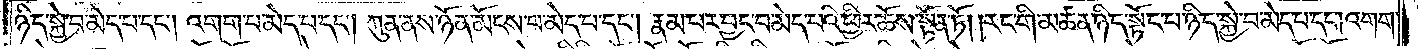ཉིད་སྐྱེ་བ་མེད་པ་དང༌། འགག་པ་མེད་པ་དང༌། ཀུན་ནས་ཉོན་མོངས་པ་མེད་པ་དང༌། རྣམ་པར་བྱང་བ་མེད་པའི་ཕྱིར་ཆོས་སྟོན་ཏོ། །རང་གི་མཚན་ཉིད་སྟོང་པ་ཉིད་སྐྱེ་བ་མེད་པ་དང༌། འགག་
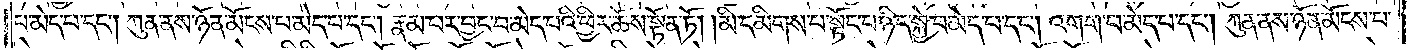པ་མེད་པ་དང༌། ཀུན་ནས་ཉོན་མོངས་པ་མེད་པ་དང༌། རྣམ་པར་བྱང་བ་མེད་པའི་ཕྱིར་ཆོས་སྟོན་ཏོ། །མི་དམིགས་པ་སྟོང་པ་ཉིད་སྐྱེ་བ་མེད་པ་དང༌། འགག་པ་མེད་པ་དང༌། ཀུན་ནས་ཉོན་མོངས་པ་
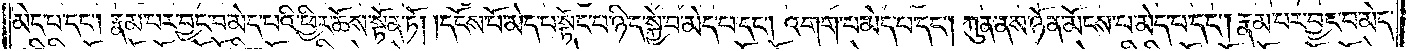མེད་པ་དང༌། རྣམ་པར་བྱང་བ་མེད་པའི་ཕྱིར་ཆོས་སྟོན་ཏོ། །དངོས་པོ་མེད་པ་སྟོང་པ་ཉིད་སྐྱེ་བ་མེད་པ་དང༌། འགག་པ་མེད་པ་དང༌། ཀུན་ནས་ཉོན་མོངས་པ་མེད་པ་དང༌། རྣམ་པར་བྱང་བ་མེད་
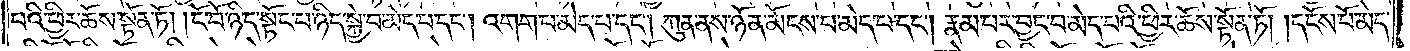པའི་ཕྱིར་ཆོས་སྟོན་ཏོ། །ངོ་བོ་ཉིད་སྟོང་པ་ཉིད་སྐྱེ་བ་མེད་པ་དང༌། འགག་པ་མེད་པ་དང༌། ཀུན་ནས་ཉོན་མོངས་པ་མེད་པ་དང༌། རྣམ་པར་བྱང་བ་མེད་པའི་ཕྱིར་ཆོས་སྟོན་ཏོ། །དངོས་པོ་མེད་
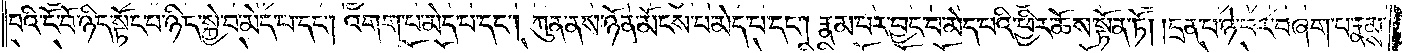པའི་ངོ་བོ་ཉིད་སྟོང་པ་ཉིད་སྐྱེ་བ་མེད་པ་དང༌། འགག་པ་མེད་པ་དང༌། ཀུན་ནས་ཉོན་མོངས་པ་མེད་པ་དང༌། རྣམ་པར་བྱང་བ་མེད་པའི་ཕྱིར་ཆོས་སྟོན་ཏོ། །དྲན་པ་ཉེ་བར་བཞག་པ་རྣམས་
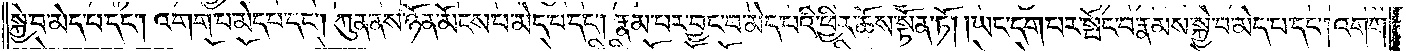སྐྱེ་བ་མེད་པ་དང༌། འགག་པ་མེད་པ་དང༌། ཀུན་ནས་ཉོན་མོངས་པ་མེད་པ་དང༌། རྣམ་པར་བྱང་བ་མེད་པའི་ཕྱིར་ཆོས་སྟོན་ཏོ། །ཡང་དག་པར་སྤོང་བ་རྣམས་སྐྱེ་བ་མེད་པ་དང༌། འགག་
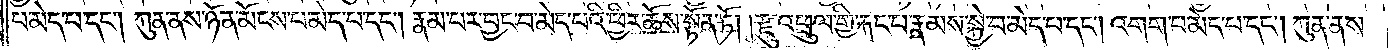པ་མེད་པ་དང༌། ཀུན་ནས་ཉོན་མོངས་པ་མེད་པ་དང༌། རྣམ་པར་བྱང་བ་མེད་པའི་ཕྱིར་ཆོས་སྟོན་ཏོ། །རྫུ་འཕྲུལ་གྱི་རྐང་པ་རྣམས་སྐྱེ་བ་མེད་པ་དང༌། འགག་པ་མེད་པ་དང༌། ཀུན་ནས་
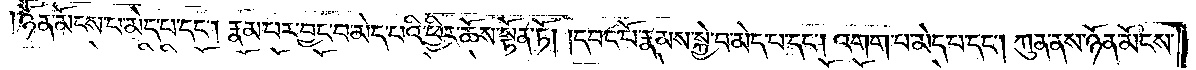ཉོན་མོངས་པ་མེད་པ་དང༌། རྣམ་པར་བྱང་བ་མེད་པའི་ཕྱིར་ཆོས་སྟོན་ཏོ། །དབང་པོ་རྣམས་སྐྱེ་བ་མེད་པ་དང༌། འགག་པ་མེད་པ་དང༌། ཀུན་ནས་ཉོན་མོངས་
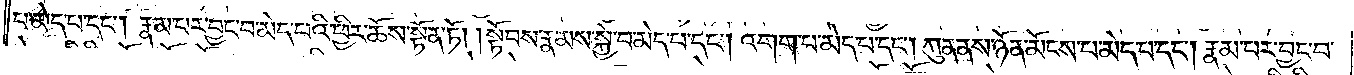པ་མེད་པ་དང༌། རྣམ་པར་བྱང་བ་མེད་པའི་ཕྱིར་ཆོས་སྟོན་ཏོ། །སྟོབས་རྣམས་སྐྱེ་བ་མེད་པ་དང༌། འགག་པ་མེད་པ་དང༌། ཀུན་ནས་ཉོན་མོངས་པ་མེད་པ་དང༌། རྣམ་པར་བྱང་བ་
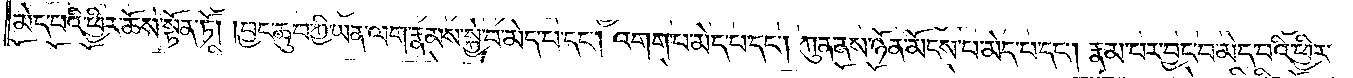མེད་པའི་ཕྱིར་ཆོས་སྟོན་ཏོ། །བྱང་ཆུབ་ཀྱི་ཡན་ལག་རྣམས་སྐྱེ་བ་མེད་པ་དང༌། འགག་པ་མེད་པ་དང༌། ཀུན་ནས་ཉོན་མོངས་པ་མེད་པ་དང༌། རྣམ་པར་བྱང་བ་མེད་པའི་ཕྱིར་
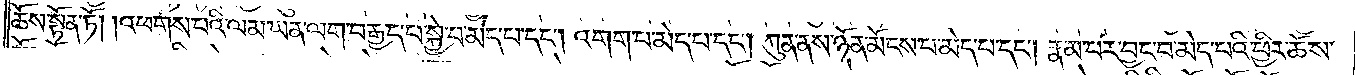ཆོས་སྟོན་ཏོ། །འཕགས་པའི་ལམ་ཡན་ལག་བརྒྱད་པ་སྐྱེ་བ་མེད་པ་དང༌། འགག་པ་མེད་པ་དང༌། ཀུན་ནས་ཉོན་མོངས་པ་མེད་པ་དང༌། རྣམ་པར་བྱང་བ་མེད་པའི་ཕྱིར་ཆོས་
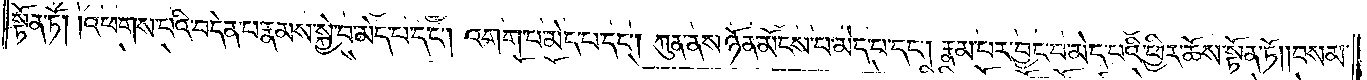སྟོན་ཏོ། །འཕགས་པའི་བདེན་པ་རྣམས་སྐྱེ་བ་མེད་པ་དང༌། འགག་པ་མེད་པ་དང༌། ཀུན་ནས་ཉོན་མོངས་པ་མེད་པ་དང༌། རྣམ་པར་བྱང་བ་མེད་པའི་ཕྱིར་ཆོས་སྟོན་ཏོ། །བསམ་
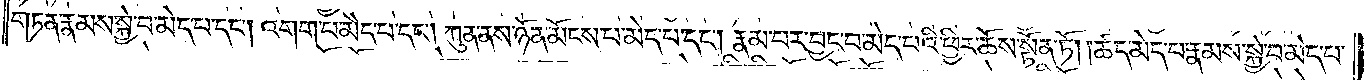གཏན་རྣམས་སྐྱེ་བ་མེད་པ་དང༌། འགག་པ་མེད་པ་དང༌། ཀུན་ནས་ཉོན་མོངས་པ་མེད་པ་དང༌། རྣམ་པར་བྱང་བ་མེད་པའི་ཕྱིར་ཆོས་སྟོན་ཏོ། །ཚད་མེད་པ་རྣམས་སྐྱེ་བ་མེད་པ་
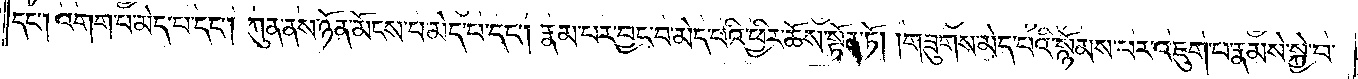དང༌། འགག་པ་མེད་པ་དང༌། ཀུན་ནས་ཉོན་མོངས་པ་མེད་པ་དང༌། རྣམ་པར་བྱང་བ་མེད་པའི་ཕྱིར་ཆོས་སྟོན་ཏོ། །གཟུགས་མེད་པའི་སྙོམས་པར་འཇུག་པ་རྣམས་སྐྱེ་བ་
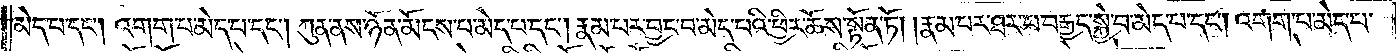མེད་པ་དང༌། འགག་པ་མེད་པ་དང༌། ཀུན་ནས་ཉོན་མོངས་པ་མེད་པ་དང༌། རྣམ་པར་བྱང་བ་མེད་པའི་ཕྱིར་ཆོས་སྟོན་ཏོ། །རྣམ་པར་ཐར་པ་བརྒྱད་སྐྱེ་བ་མེད་པ་དང༌། འགག་པ་མེད་པ་
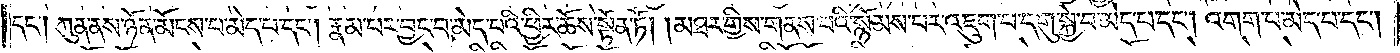དང༌། ཀུན་ནས་ཉོན་མོངས་པ་མེད་པ་དང༌། རྣམ་པར་བྱང་བ་མེད་པའི་ཕྱིར་ཆོས་སྟོན་ཏོ། །མཐར་གྱིས་གནས་པའི་སྙོམས་པར་འཇུག་པ་དགུ་སྐྱེ་བ་མེད་པ་དང༌། འགག་པ་མེད་པ་དང༌།
